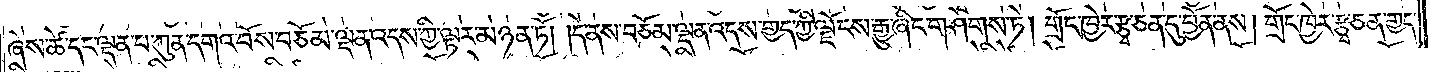ཞེས་ཚེ་དང་ལྡན་པ་ཀུན་དགའ་བོས་བཅོམ་ལྡན་འདས་ཀྱི་ལྟར་མཉན་ཏོ། །དེ་ནས་བཅོམ་ལྡན་འདས་གྱད་ཀྱི་ལྗོངས་རྒྱུ་ཞིང་གཤེགས་ཏེ། གྲོང་ཁྱེར་རྩྭ་ཅན་དུ་བྱོན་ནས། གྲོང་ཁྱེར་རྩྭ་ཅན་གྱད་
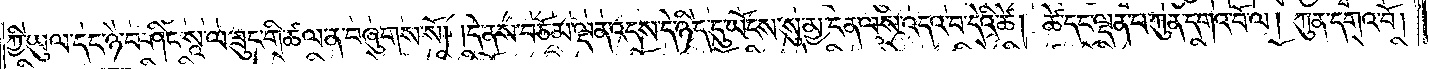ཀྱི་ཡུལ་དང་ཉེ་བ་ཤིང་སཱ་ལ་ཟུང་གི་ཚལ་ན་བཞུགས་སོ། །དེ་ནས་བཅོམ་ལྡན་འདས་དེ་ཉིད་དུ་ཡོངས་སུ་མྱ་ངན་ལས་འདའ་བ་དེའི་ཚེ། ཚེ་དང་ལྡན་པ་ཀུན་དགའ་བོ་ལ། །ཀུན་དགའ་བོ།
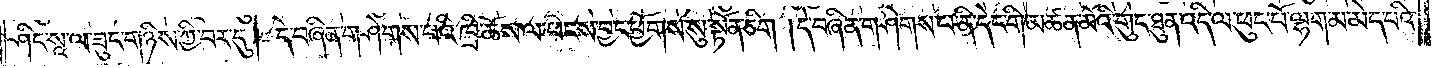ཤིང་སཱ་ལ་ཟུང་གཉིས་ཀྱི་བར་དུ། དེ་བཞིན་གཤེགས་པའི་ཁྲི་ཆོས་ལ་ཕངས་བྱང་ཕྱོགས་སུ་སྟོན་ཅིག །དེ་བཞིན་གཤེགས་པ་ནི་དེང་གི་མཚན་མོའི་གུང་ཐུན་འདི་ལ་ཕུང་པོ་ལྷག་མ་མེད་པའི་
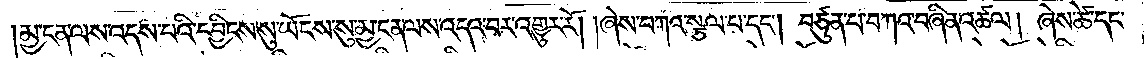མྱ་ངན་ལས་འདས་པའི་དབྱིངས་སུ་ཡོངས་སུ་མྱ་ངན་ལས་འདའ་བར་འགྱུར་རོ། །ཞེས་བཀའ་སྩལ་པ་དང༌། བཙུན་པ་བཀའ་བཞིན་འཚལ། ཞེས་ཚེ་དང་
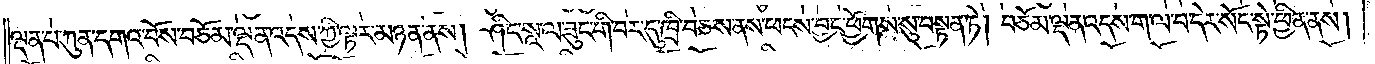ལྡན་པ་ཀུན་དགའ་བོས་བཅོམ་ལྡན་འདས་ཀྱི་ལྟར་མཉན་ནས། ཤིང་སཱ་ལ་ཟུང་གི་བར་དུ་ཁྲི་བཅས་ནས་ཕངས་བྱང་ཕྱོགས་སུ་བསྟན་ཏེ། བཅོམ་ལྡན་འདས་ག་ལ་བ་དེར་སོང་སྟེ་ཕྱིན་ནས།
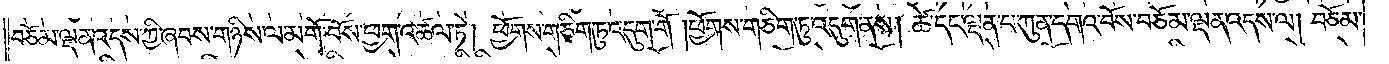བཅོམ་ལྡན་འདས་ཀྱི་ཞབས་གཉིས་ལ་མགོ་བོས་ཕྱག་འཚལ་ཏེ། ཕྱོགས་གཅིག་ཏུ་འདུག་གོ །ཕྱོགས་གཅིག་ཏུ་འདུག་ནས། ཚེ་དང་ལྡན་པ་ཀུན་དགའ་བོས་བཅོམ་ལྡན་འདས་ལ། བཅོམ་
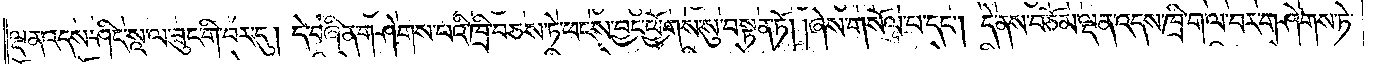ལྡན་འདས་ཤིང་སཱ་ལ་ཟུང་གི་བར་དུ། དེ་བཞིན་གཤེགས་པའི་ཁྲི་བཅས་ཏེ་ཕངས་བྱང་ཕྱོགས་སུ་བསྟན་ཏོ། །ཞེས་གསོལ་པ་དང༌། དེ་ནས་བཅོམ་ལྡན་འདས་ཁྲི་ག་ལ་བར་གཤེགས་ཏེ་
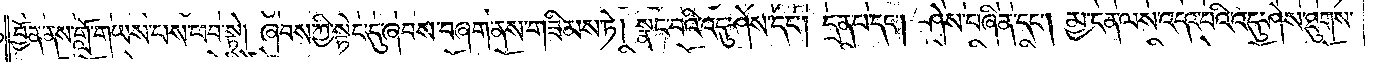བྱོན་ནས་གློ་གཡས་པས་ཕབ་སྟེ། ཞབས་ཀྱི་སྟེང་དུ་ཞབས་བཞག་ནས་གཟིམས་ཏེ། སྣང་བའི་འདུ་ཤེས་དང༌། དྲན་པ་དང༌། ཤེས་བཞིན་དང༌། མྱ་ངན་ལས་འདའ་བའི་འདུ་ཤེས་ཐུགས་
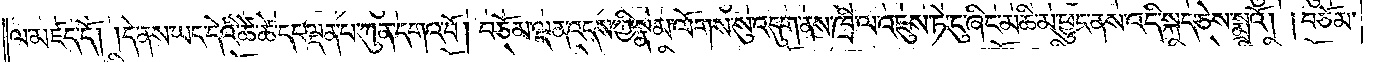ལ་མཛད་དོ། །དེ་ནས་ཡང་དེའི་ཚོ་ཚེ་དང་ལྡན་པ་ཀུན་དགའ་བོ། །བཅོམ་ལྡན་འདས་ཀྱི་སྣམ་ལོགས་སུ་འདུག་ནས་ཁྲི་ལ་འཇུས་ཏེ་ངུ་ཞིང་མཆི་མ་ཕྱུང་ནས་འདི་སྐད་ཅེས་སྨྲའོ། །བཅོམ་
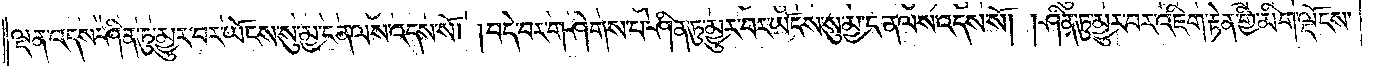ལྡན་འདས་ཤིན་ཏུ་མྱུར་བར་ཡོངས་སུ་མྱ་ངན་ལས་འདས་སོ། །བདེ་བར་གཤེགས་པ་ཤིན་ཏུ་མྱུར་བར་ཡོངས་སུ་མྱ་ངན་ལས་འདས་སོ། །ཤིན་ཏུ་མྱུར་བར་འཇིག་རྟེན་གྱི་མིག་ལྡོངས་
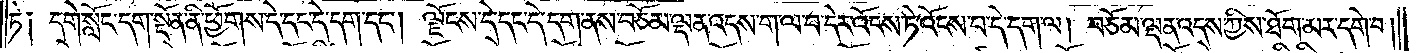ཏེ༑ དགེ་སློང་དག་སྔོན་ནི་ཕྱོགས་དེ་དང་དེ་དག་དང༌། ལྗོངས་དེ་དང་དེ་དག་ནས་བཅོམ་ལྡན་འདས་ག་ལ་བ་དེར་འོངས་ཏེ་འོངས་པ་དེ་དག་ལ། བཅོམ་ལྡན་འདས་ཀྱིས་ཐོག་མར་དགེ་བ།
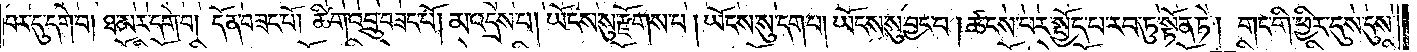བར་དུ་དགེ་བ། ཐ་མར་དགེ་བ། དོན་བཟང་པོ། ཚིག་འབྲུ་བཟང་པོ། མ་འདྲེས་པ། ཡོངས་སུ་རྫོགས་པ། ཡོངས་སུ་དག་པ། ཡོངས་སུ་བྱང་བ། ཚངས་པར་སྤྱོད་པ་རབ་ཏུ་སྟོན་ཏེ། གང་གི་ཕྱིར་དུས་དུས་
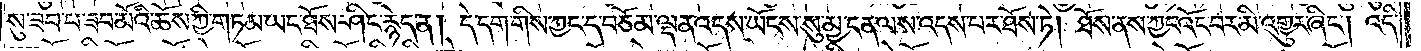སུ་ཟབ་པ་ཟབ་མོའི་ཆོས་ཀྱི་གཏམ་ཡང་ཐོས་ཤིང་རྙེད་ན། དེ་དག་གིས་ཀྱང་ད་བཅོམ་ལྡན་འདས་ཡོངས་སུ་མྱ་ངན་ལས་འདས་པར་ཐོས་ཏེ། ཐོས་ནས་ཀྱང་འོང་བར་མི་འགྱུར་ཞིང༌། འདི་
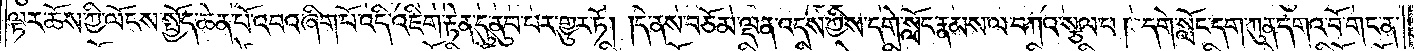ལྟར་ཆོས་ཀྱི་ལོངས་སྤྱོད་ཆེན་པོ་འབའ་ཞིག་པོ་འདི་འཇིག་རྟེན་དུ་ནུབ་པར་གྱུར་ཏོ། །དེ་ནས་བཅོམ་ལྡན་འདས་ཀྱིས་དགེ་སློང་རྣམས་ལ་བཀའ་སྩལ་པ། དགེ་སློང་དག་ཀུན་དགའ་བོ་གང་ན་
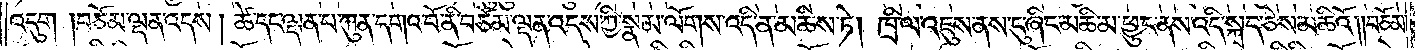འདུག །བཅོམ་ལྡན་འདས། ཚེ་དང་ལྡན་པ་ཀུན་དགའ་བོ་ནི་བཅོམ་ལྡན་འདས་ཀྱི་སྣམ་ལོགས་འདི་ན་མཆིས་ཏེ། ཁྲི་ལ་འཇུས་ནས་ངུ་ཞིང་མཆི་མ་ཕྱུང་ནས་འདི་སྐད་ཅེས་མཆིའོ། །བཅོམ་
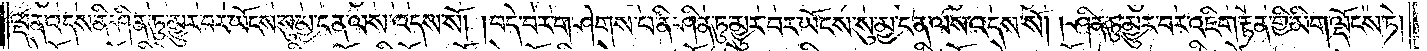ལྡན་འདས་ནི་ཤིན་ཏུ་མྱུར་བར་ཡོངས་སུ་མྱ་ངན་ལས་འདས་སོ། །བདེ་བར་གཤེགས་པ་ནི་ཤིན་ཏུ་མྱུར་བར་ཡོངས་སུ་མྱ་ངན་ལས་འདས་སོ། །ཤིན་ཏུ་མྱུར་བར་འཇིག་རྟེན་གྱི་མིག་ལྡོངས་ཏེ།
